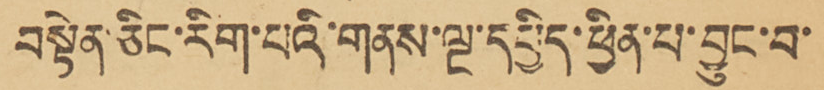བསྟེན་ཅིང་རིག་པའི་གནས་ལྔ་དཔྱིད་ཕྱིན་པ་བྱུང་བ་
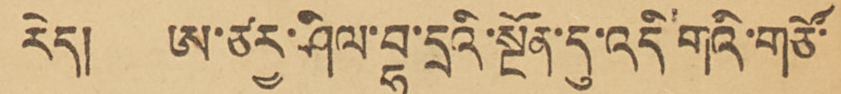རེད། ཨ་ཙརྱ་ཤིལ་བྷ་དྲའི་སྔོན་དུ་འདི་གའི་གཙོ་
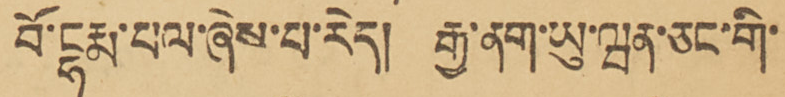བོ་ངྷརྨ་པལ་ཞེས་པ་རེད། རྒྱ་ནག་ཡུ་ཝན་ཅང་གི་
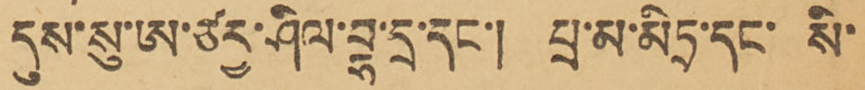དུས་སུ་ཨ་ཙྱ་ཤིལ་བྷ་དྲ་དང་། པྲ་མ་མིཏྲ་དང་ སི་
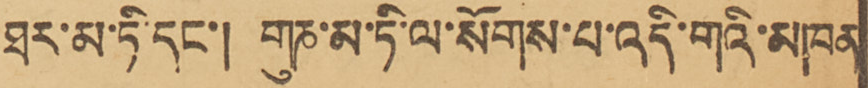ཐར་མ་ཏི་དང་། གུཎ་མ་ཏི་ལ་སོགས་པ་འདི་གའི་མཁན
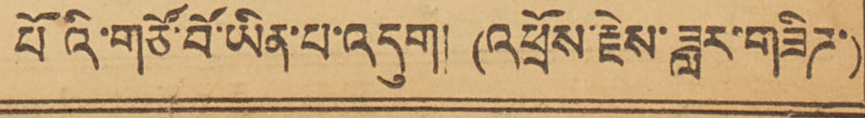པོའི་གཙོ་བོ་ཡིན་པ་འདུག།།(འཕྲོས་རྗེས་ཟླར་གཟིཌ་)
